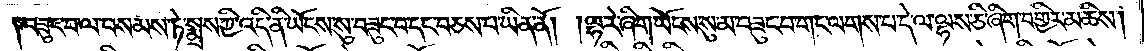བཟུང་བ་ལ་བསམས་ཏེ་སྨྲས་ཀྱི་འདི་ནི་ཡོངས་སུ་བཟུང་བ་དང་བཅས་པ་ཡིན་ནོ། །ལྷ་རེ་ཞིག་ཡོངས་སུ་མ་བཟུང་བ་གང་ལགས་པ་དེ་ལ་ལྷས་ཅི་ཞིག་བགྱིར་མཆིས།
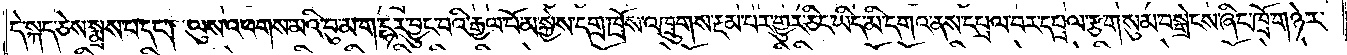དེ་སྐད་ཅེས་སྨྲས་པ་དང༌། ལུས་འཕགས་མའི་བུ་མ་ག་དྷར་བྱུང་བའི་རྒྱལ་པོ་མ་སྐྱེས་དགྲ་ཁྲོས་འཁྲུགས་རྔམ་པར་གྱུར་ཅིང་ཡིད་མི་དགའ་ནས་དཔྲལ་བར་དཔྲལ་རྩ་གསུམ་བསྒྲེངས་ཞིང་ཁྲོ་གཉེར་
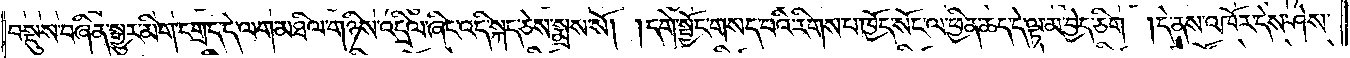བསྡུས་བཞིན་སྒྱུར་མིག་དགྲད་དེ་ལག་མཐིལ་གཉིས་འདྲིལ་ཞིང་འདི་སྐད་ཅེས་སྨྲས་སོ། །དགེ་སྦྱོང་གསད་པའི་རིགས་པ་ཁྱོད་སོང་ལ་ཕྱིན་ཆད་དེ་ལྟ་མ་བྱེད་ཅིག །དེ་ནས་འཁོར་དེས་ཤེས་
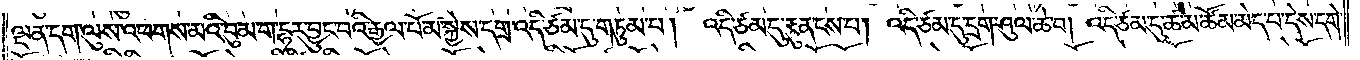ལྡན་དག་ལུས་འཕགས་མའི་བུ་མ་ག་དྷར་བྱུང་བའི་རྒྱལ་པོ་མ་སྐྱེས་དགྲ་འདི་ཙམ་དུ་གཏུམ་པ། འདི་ཙམ་དུ་རྟུན་ངས་པ། འདི་ཙམ་དུ་དྲག་ཤུལ་ཆེ་བ། འདི་ཙམ་དུ་ཚ་མ་ཚོམ་མེད་པ་དེས་དགེ་
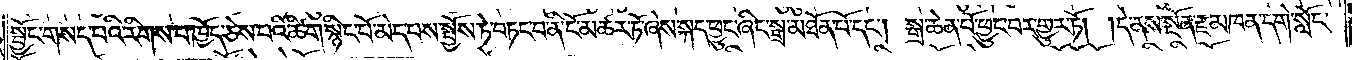སྦྱོང་གསད་པའི་རིགས་པ་ཁྱོད་ཅེས་པའི་ཚིག་སྙིང་པོ་མེད་པས་སྤྱོས་ཏེ་བཏང་བ་ནི་ངོ་མཚར་ཏོ་ཞེས་སྐད་ཕྱུང་ཞིང་སྒྲ་མཐོན་པོ་དང༌། སྒྲ་ཆེན་པོ་ཕྱུང་བར་གྱུར་ཏོ། །དེ་ནས་སྔོན་རྫ་མཁན་དགེ་སློང་
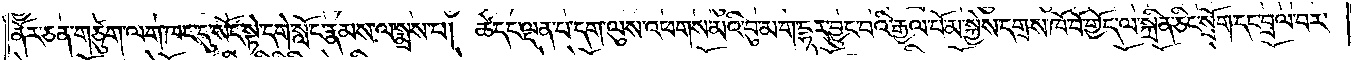ནོར་ཅན་གཙུག་ལག་ཁང་དུ་སོང་སྟེ་དགེ་སློང་རྣམས་ལ་སྨྲས་པ། ཚེ་དང་ལྡན་པ་དག་ལུས་འཕགས་མའི་བུ་མ་ག་དྷར་བྱུང་བའི་རྒྱལ་པོ་མ་སྐྱེས་དགྲས་ཁོ་བོ་གྱོད་ལ་སྐྲིན་ཅིང་སྲོག་དང་བྲལ་བར་
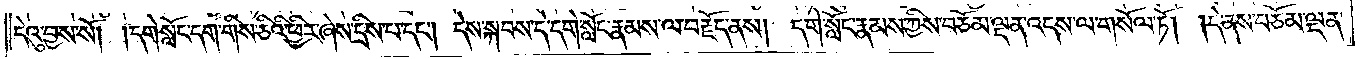དེའུ་བྱས་སོ། །དགེ་སློང་དག་གིས་ཅིའི་ཕྱིར་ཞེས་དྲིས་པ་དང༌། དེས་སྐབས་དེ་དགེ་སློང་རྣམས་ལ་བརྗོད་ནས། དགེ་སློང་རྣམས་ཀྱིས་བཅོམ་ལྡན་འདས་ལ་གསོལ་ཏོ། །དེ་ནས་བཅོམ་ལྡན་
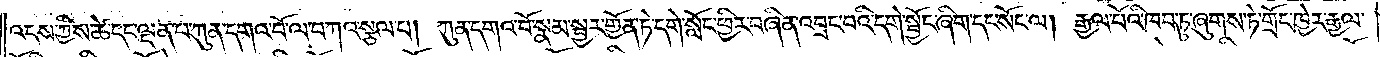འདས་ཀྱིས་ཚེ་དང་ལྡན་པ་ཀུན་དགའ་བོ་ལ་བཀའ་སྩལ་པ། ཀུན་དགའ་བོ་སྣམ་སྦྱར་གྱོན་ཏེ་དགེ་སློང་ཕྱིར་བཞིན་འབྲང་བའི་དགེ་སྦྱོང་ཞིག་དང་སོང་ལ། རྒྱལ་པོའི་ཁབ་ཏུ་ཞུགས་ཏེ་གྲོང་ཁྱེར་རྒྱལ་
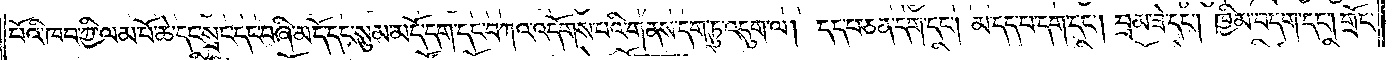པོའི་ཁབ་ཀྱི་ལམ་པོ་ཆེ་དང་སྲང་དང་བཞི་མདོ་དང་སུམ་མདོ་དག་དང་བཀའ་འདོགས་པའི་གནས་དག་ཏུ་འདུག་ལ། དད་པ་ཅན་དག་དང༌། མ་དད་པ་དག་དང༌། བྲམ་ཟེ་དང༌། ཁྱིམ་བདག་དང༌། གྲོང་
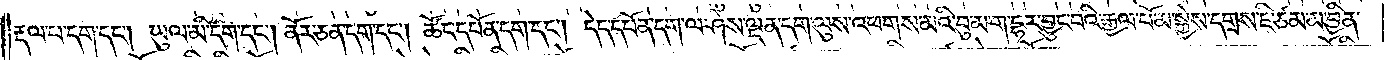རྡལ་པ་དག་དང༌། ཡུལ་མི་དག་དང༌། ནོར་ཅན་དག་དང༌། ཚོང་དཔོན་དག་དང༌། དེད་དཔོན་དག་ལ་ཤེས་ལྡན་དག་ལུས་འཕགས་མའི་བུ་མ་ག་དྷར་བྱུང་བའི་རྒྱལ་པོ་མ་སྐྱེས་དགྲས་ཇི་ཙམ་མ་བྱིན་
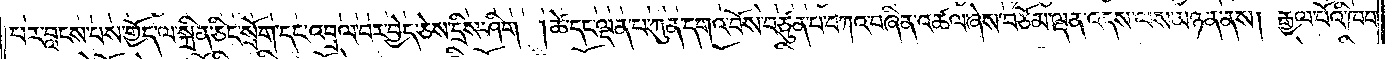པར་བླངས་པས་གྱོད་ལ་སྐྲིན་ཅིང་སྲོག་དང་འབྲལ་བར་བྱེད་ཅེས་དྲིས་ཤིག །ཚེ་དང་ལྡན་པ་ཀུན་དགའ་བོས་བཙུན་པ་བཀའ་བཞིན་འཚལ་ཞེས་བཅོམ་ལྡན་འདས་ལས་མཉན་ནས། རྒྱལ་པོའི་ཁབ་
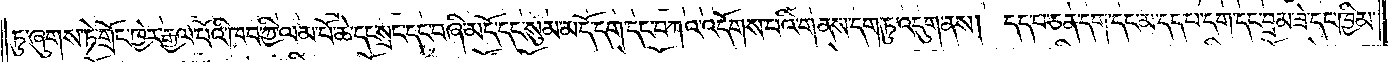ཏུ་ཞུགས་ཏེ་གྲོང་ཁྱེར་རྒྱལ་པོའི་ཁབ་ཀྱི་ལམ་པོ་ཆེ་དང་སྲང་དང་བཞི་མདོ་དང་སུམ་མདོ་དག་དང་བཀའ་འདོགས་པའི་གནས་དག་ཏུ་འདུག་ནས། དད་པ་ཅན་དག་དང་མ་དད་པ་དག་དང་བྲམ་ཟེ་དང་ཁྱིམ་
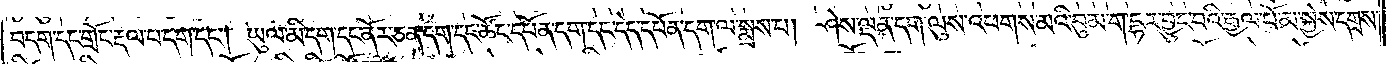བདག་དང་གྲོང་རྡལ་པ་དག་དང༌། ཡུལ་མི་དག་དང་ནོར་ཅན་དག་དང་ཚོང་དཔོན་དག་དང་དེད་དཔོན་དག་ལ་སྨྲས་པ། ཤེས་ལྡན་དག་ལུས་འཕགས་མའི་བུ་མ་ག་དྷར་བྱུང་བའི་རྒྱལ་པོ་མ་སྐྱེས་དགྲས་
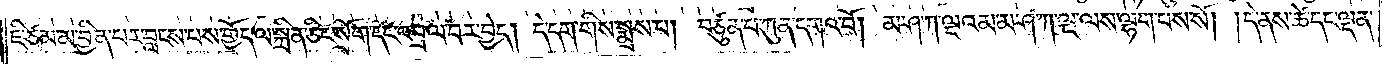ཇི་ཙམ་མ་བྱིན་པར་བླངས་པས་གྱོད་ལ་སྐྲིན་ཅིང་སྲོག་དང་འབྲལ་བར་བྱེད། དེ་དག་གིས་སྨྲས་པ། བཙུན་པ་ཀུན་དགའ་བོ། མ་ཤ་ཀ་ལྔའམ་མ་ཤ་ཀ་ལྔ་ལས་ལྷག་བས་སོ། །དེ་ནས་ཚེ་དང་ལྡན་
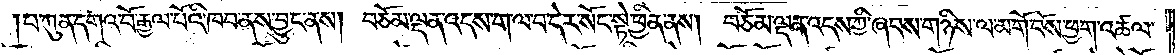པ་ཀུན་དགའ་བོ་རྒྱལ་པོའི་ཁབ་ནས་བྱུང་ནས། བཅོམ་ལྡན་འདས་ག་ལ་བ་དེར་སོང་སྟེ་ཕྱིན་ནས། བཅོམ་ལྡན་འདས་ཀྱི་ཞབས་གཉིས་ལ་མ་གོ་བོས་ཕྱག་འཚལ་
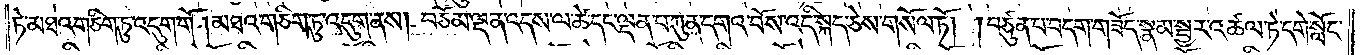ཏེ་མཐའ་གཅིག་ཏུ་འདུག་གོ །མཐའ་གཅིག་ཏུ་འདུག་ནས། བཅོམ་ལྡན་འདས་ལ་ཚེ་དང་ལྡན་པ་ཀུན་དགའ་བོས་འདི་སྐད་ཅེས་གསོལ་ཏོ། །བཙུན་པ་བདག་གཟོད་སྣམ་སྦྱར་འཚལ་ཏེ་དགེ་སློང་
